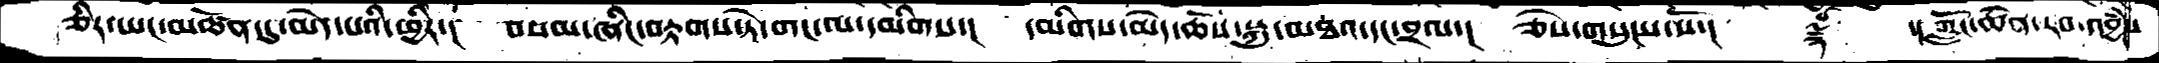ཅིར་ཡང་མཚོན་དུ་མེད་པའི་ཕྱིར་།  བསམ་ཞིང་བརྟགས་ཏེ་གང་ལ་དམིགས་།  དམིགས་མེད་ཆོས་སྐུ་མཐའ་དང་བྲལ་།  ཅེས་གསུངས་སོ་།  ༈  ་།ཀློང་ཆེན་རབ་འབྱཾས་
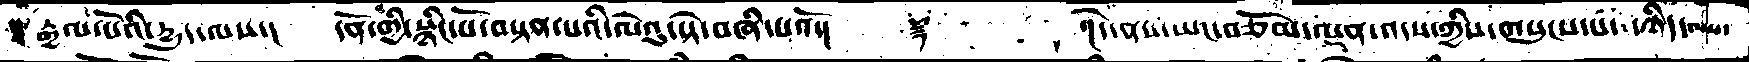རྒྱལ་པོའི་དྱུད་ལས་།  དོན་གྱི་སྙིང་པོ་བསྟན་པའི་ལེའུ་བཞི་པའོ་།   ༈     ་།དེ་ནས་ཡང་བཅོམ་ལྡན་འདས་ཀྱིས་གསུངས་པ་ཉིད་ལས་
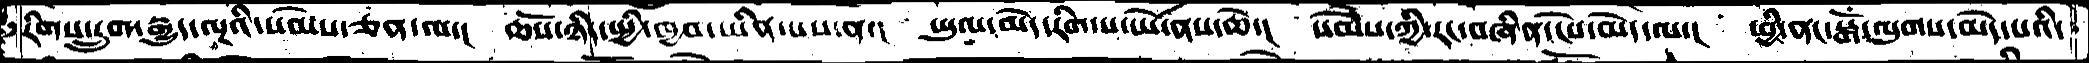རིགས་དྲུག་རྒྱུད་ལྔའི་སེམས་ཅན་ལ་། ཆོས་ཉིད་སྤྱི་ཁྱབ་ཡིན་པས་ན་། ཡུལ་མེད་རིག་པ་ཡེ་ནས་ཆེ་། སེམས་ཀྱི་རང་བཞིན་ངེས་མེད་ལ་། ཕྱི་ནང་སྒོ་ལུགས་མེད་པའི་
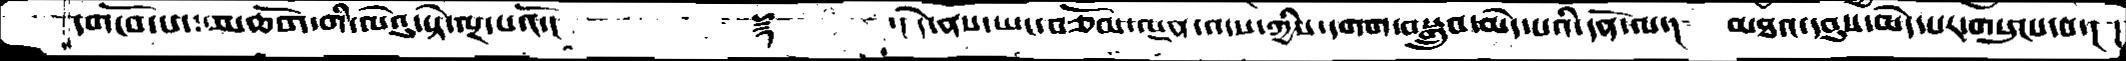དགོངས་པ་མཆོག་གི་ལེའུ་སྟེ་ལྔ་པའོ་།     ༈    ་།དེ་ནས་ཡང་བཅོམ་ལྡན་འདས་ཀྱིས་དགག་བསྒྲུབ་མེད་པའི་དོན་ལ་།  མཐའ་དབུས་མེད་པར་གསུངས་བ་། །
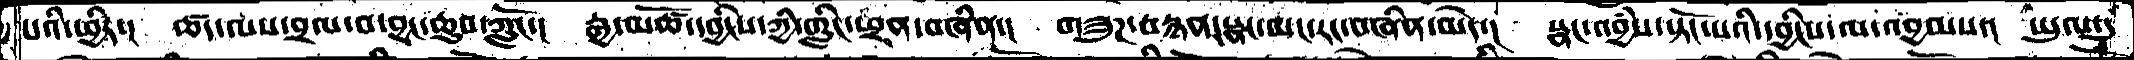པའི་ཕྱིར་།  ཚད་ལས་བྲལ་བ་བྱང་ཆུབ་ཀློང་།  རྒྱ་མཚོ་དབྱིངས་ཀྱི་གླིང་ཕྲན་བཞིན་།  གཟུཌ་བརྙན་སྣང་ཡང་རང་བཞིན་མེད་། སྣང་འབྱཾས་སྟོང་པའི་དབྱིངས་ལ་འབྱམས་།  ཡུལ་དུ་
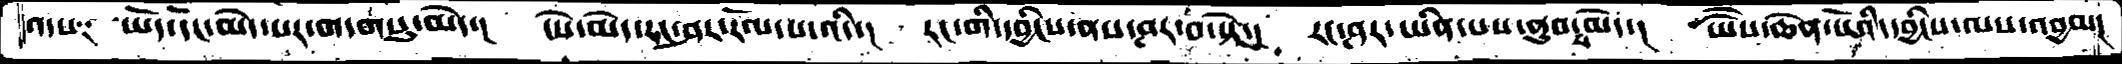འདས༑  ཡོད་དང་མེད་པར་གདགསུ་མེད་།  ཡེ་མེད་རང་ཤར་རོལ་པ་འདི་།  རང་གི་དབྱིངས་ནས་ཤར་བ་སྟེ་།  རང་ཤར་ཡིན་པས་ནུབ་པ་མེད་།  ཡཻས་ཆེན་པོའི་དབྱིངས་ལས་འབྱམ།
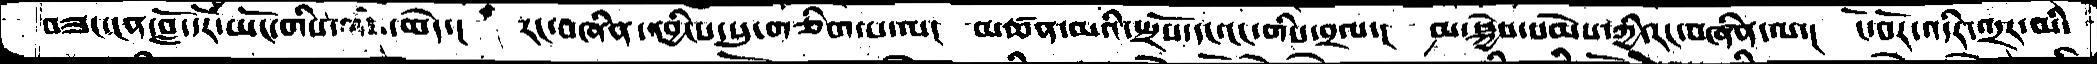བཟང་ངན་བློ་དོར་ཡོང་གིས་མེད་།  རང་བཞིན་དབྱིངས་སུ་གཅིག་པ་ལ།  མཚན་མའི་སྤྲོས་དང་ངང་གིས་བྲལ་།  མ་སྐྱེས་སེམས་ཀྱི་རང་བཞིན་ལ་།  ངོ་བོར་འདིར་འདྲར་མི་
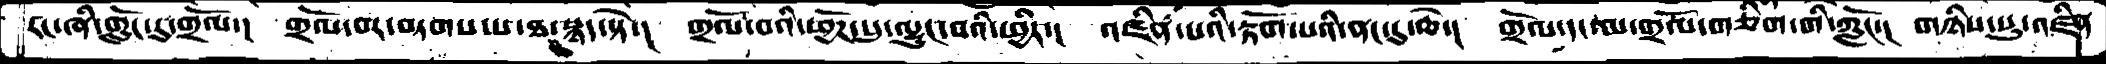རང་ཞི་གློང་དུ་གྲོལ་།  གྲོལ་བར་བཏགས་པ་ཐ་སྙད་སྟེ་། གྲོལ་བའི་ཕྱོཌ་སུ་ལྷུང་བའི་ཕྱིར་། འཛིན་པའི་རྟོག་པའི་ནང་དུ་ཆེ་།  གྲོལ་དང་མ་གྲོལ་གཅིག་གི་ཀློང་། གཉིས་སུ་འཛིན
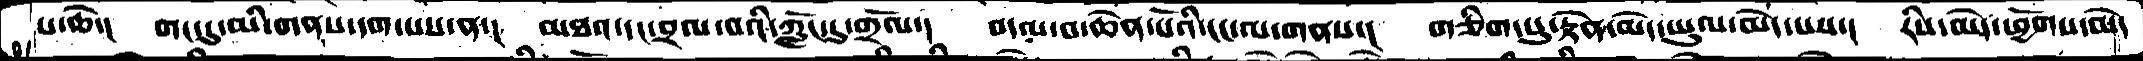པ་ཆེ་།  གང་དུ་མི་གནས་དག་པས་ན་། མཐའ་དང་བྲལ་བའི་ཀློང་དུ་གྲོལ་། བདལ་བ་ཆེན་པོའི་ངང་ལ་གནས་། གཅིག་སུ་རྟེན་མེད་ཡུལ་མེད་པས་།  རིས་མེད་ཕྱོགས་མེད
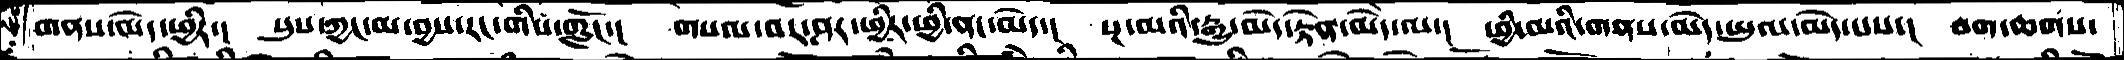གནས་མེད་ཕྱིར་། སུས་ཀྱང་མ་བྱས་རང་གིས་གློང་།  གསལ་བར་ཤར་ཕྱིར་ཕྱི་ནང་མེད་། སྔ་མའི་རྒྱུ་མེད་རྟེན་མེད་ལ་། ཕྱི་མའི་གནས་མེད་ཡུལ་མེད་པས་། བག་ཆགས་
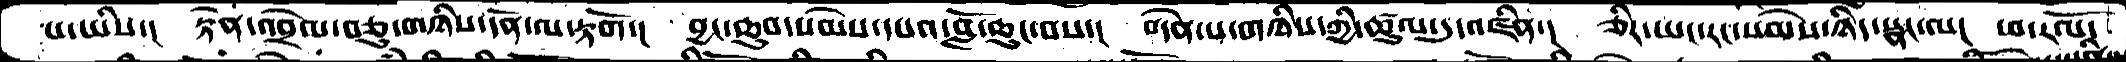པ་ཡིས་།  རྟེན་འབྲེལ་བཅུ་གཉིས་དོན་ལ་རྟོག་།  བྱང་ཆུབ་སེམས་དཔའ་བློ་ཆུང་བས་།  བདེན་པ་གཉིས་ཀྱི་ཚུལ་དུ་འཛིན་།  ཅིར་ཡང་རང་སེམས་ཉིད་སྣང་ལ། ཕ་རོལ་
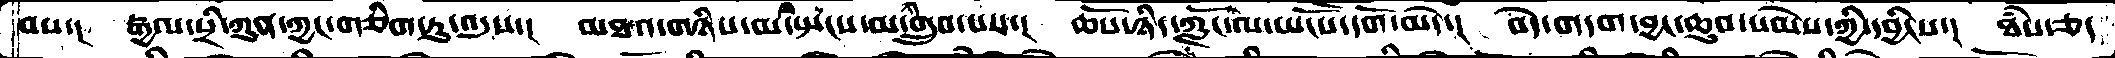བས་།  རྒྱལ་སྲི་ཀུན་ཀྱང་གཅིག་ཏུ་འདུས་།  མཐའ་གཉིས་མ་སྤངས་མ་གྲུབ་པས་།  ཆོས་ཉིད་ཀློང་ལས་ཡོངས་དོག་མེད་།  བདེ་གདག་བྱང་ཆུབ་སེམས་ཀྱི་དབྱིངས་།  ཐཾས་ཅད
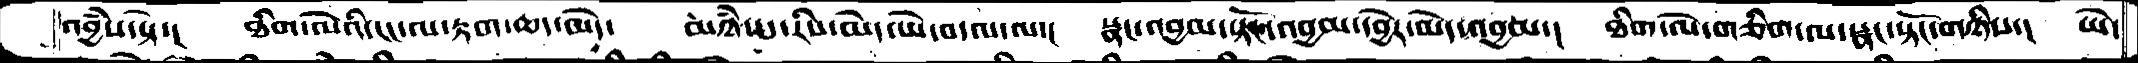འབྱཾས་སྟེ་།  ཐིག་ལེའི་ངང་ལ་རྟག་ཆད་མེད་ མཉཾས་པ་རིས་མེད་ཡེ་བདལ་ལ་།  སྣང་འབྱམ་སྟོང་འབྱམ་དབྱེར་མེད་འབྱམ་།  ཐིག་ལེ་གཅིག་ལ་སྣང་སྟོང་གཉིས་།  ཡེ་
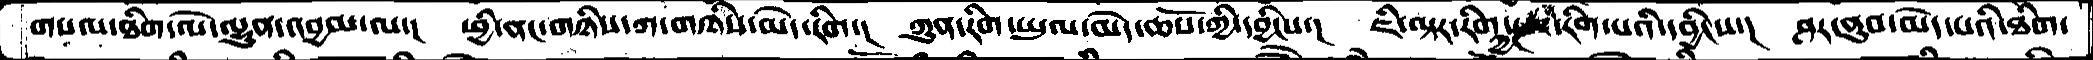གསལ་ཐིག་ལེ་ལྷུན་འབྱམ་ལ་།  ཕྱི་ནང་གཉིས་ཀ་གཉིས་མེད་རིག་།  ཀུན་རིག་ཡུལ་མེད་ཆོས་གྱི་དབྱིངས་།  ཇི་ལྟར་རིག་ཀྱང་རིག་པའི་དབྱིངས་།  ཤར་ནུབ་མེད་པའི་ཐིག་
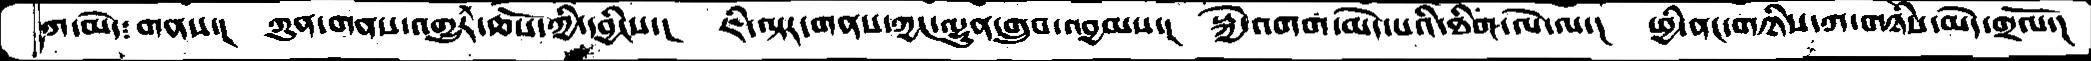ཀ་མེད་གནས་། ཀུན་གནས་འགྱུར་ཆོས་ཀྱི་དབྱིངས་། ཇི་ལྟར་གནས་ཀྱང་ལྷུན་གྲུབ་འབྱམས་། སྐྱེ་འགག་མེད་པའི་ཐིག་ལེ་ལ་། ཕྱི་ནང་གཉིས་ཀ་གཉིས་མེད་གྲོལ་།
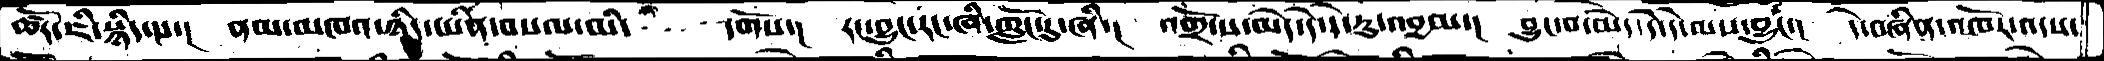ཚོར་ཇི་སྙིད་པ་། ནམ་མཁའ་ཉིད་ཡིན་བསལ་མི་་་་དགོས་། རང་བྱུང་རང་ཞི་གློང་དུ་ཞི་། འགྲོ་ས་མེད་དེ་དེ་རུ་འབྱམ་། བྱུང་བ་མེད་དེ་དེ་ལས་བྱུང་།  དེ་བཞིན་འཁོར་འདས་
